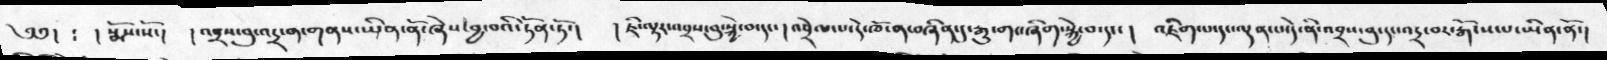༄༅།  ༴ །སྨོས་སོ་།  །འབྲས་བུ་འདྲ་ན་གནས་ཡིན་ནོ་ཞེས་བྱ་བའི་དོན་ཏོ་།  །ཇི་ལྟར་འབྲས་བུ་སྐྱེ་བ་དང་། འབྲེལ་པ་དེ་ཁོ་ན་བཞིན་དུ་རྒྱུ་གང་ཞིག་སྐྱེ་བ་དང་།  འཇིག་པ་དང་ལྡན་པ་དེ་ནི་འབྲས་བུ་དང་འདྲ་བར་རྒོངས་པ་ཡིན་ནོ་།
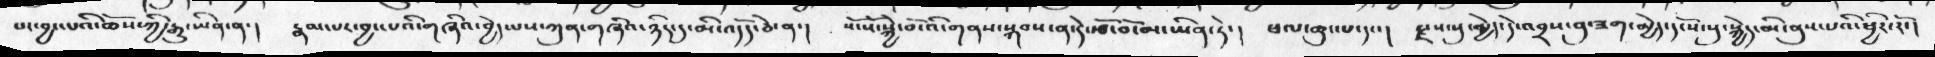པར་བྱང་པའི་ཆོས་ཀྱི་རྒྱུ་ཡིན་ན་།  རྣམ་པར་བྱང་པའི་གཞིའ་བྱེད་པས་ཀུན་གཞིའ་ཉིད་དུ་མི་འདོད་ཅེ་ན་།  སོ་སོ་སྐྱེ་བོ་འི་གནས་སྐབས་ན་དེ་རྩོ་བོ་མ་ཡིན་ཏེ་།  ཕལ་ཆུང་པ་དང་།  རྫས་སུ་མྱེད་དེ་འབྲས་བུ་ཟག་མྱེད་དངོས་སུ་སྐྱེད་མི་ནུས་པའི་ཕྱིར་རོ་།
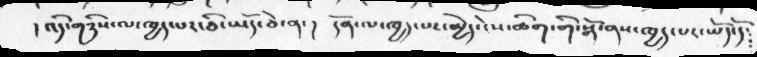།འདི་གཉིས་ལ་ཁྱད་པར་ཅི་ཡོད་ཅེ་ན་།  དོན་ལ་ཁྱད་པར་མྱེད་ངེས་ཚིག་གི་སྒོ་ནས་ཁྱད་པར་ཡོད་དོ༴
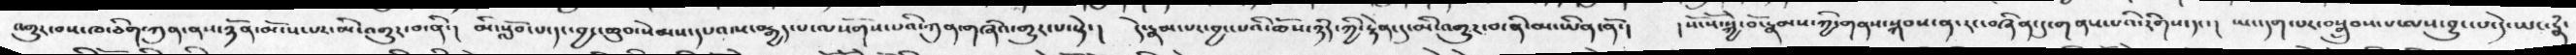འགྱུར་བས་ཁ་ཅིག་ཀུན་ནས་ཉོན་མོངས་པར་མི་འགྱུར་བ་ནི་།  མི་སློབ་པ་དང་བྱང་ཆུབ་སེམས་དཔའ་ས་བརྒྱད་པ་ལསོགས་པའི་ཀུན་གཞིའ་གྱུར་པ་སྟེ་།  དེ་རྣམ་པར་བྱང་པའི་ཆོས་ཉིད་ཀྱི་རྟེན་དུ་མི་འགྱུར་བ་ནི་མ་ཡིན་ནོ་།  །སོ་སོ་སྐྱེ་བོ་རྣམས་ཀྱི་གནས་སྐབས་ན་རང་བཞིན་དུ་གནས་པའི་རིགས་དང་།  ཡང་དག་པར་བསྒྲུབས་པ་ལས་བྱུང་པ་དེ་ཡང་རྣཾ་
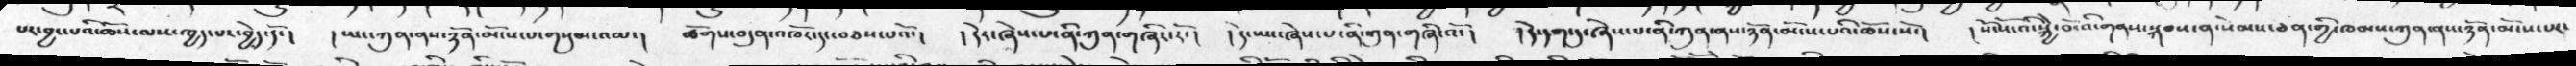པར་བྱང་པའི་ཆོས་ལས་ཁྱད་པར་བྱེད་དོ་།  །ཡང་ཀུན་ནས་ཉོན་མོངས་པ་གསུམ་འམ་།  ཚོགས་བདུན་འཁོར་དང་བཅས་པའོ་།  །དེར་ཞེས་པ་ནི་ཀུན་གཞིར་རོ་།  །དེ་ཡང་ཞེས་པ་ནི་ཀུན་གཞི་འོ་།  །དེ་དག་དུ་ཞེས་པ་ནི་ཀུན་ནས་ཉོན་མོངས་པའི་ཆོས་སོ་།  །སོ་སོ་འི་སྐྱེ་བོ་འི་གནས་སྐབས་ན་སེམས་ཅན་གྱི་ཁམས་ཀུན་ནས་ཉོན་མོངས་པར་
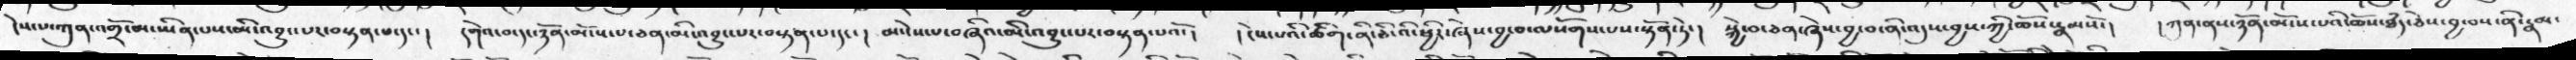ངེས་པ་ཀུན་འགྲོ་མ་ཡིན་པས་མི་འབྱུང་པར་བསྟན་པ་དང་།  དགེའ་བ་དང་ཉོན་མོངས་པ་ཅན་མི་འབྱུང་པར་བསྟན་པ་དང་།  མ་ངེས་པ་བཞིའ་མི་འབྱུང་པར་བསྟན་པའོ་།  །ངེས་པའི་ཚིག་ནི་ཅི་འི་ཕྱིར་ཞེས་བྱ་བ་ལསོགས་པས་སྟོན་ཏེ་།  སྐྱེ་བ་ཅན་ཞེས་བྱ་བ་ནི་འདུས་བྱས་ཀྱི་ཆོས་རྣམསོ་།   །ཀུན་ནས་ཉོན་མོངས་པའི་ཆོས་ཐདཾ་ཅེས་བྱ་བས་ནི་རྣམ་
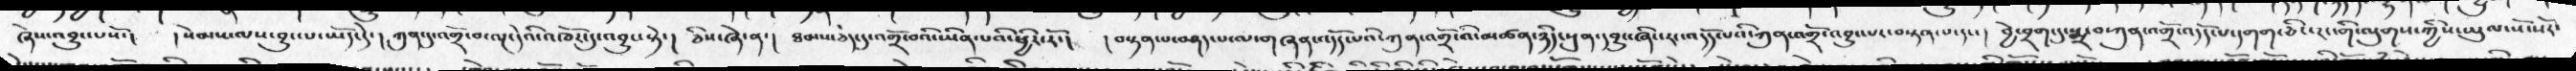ཞེས་འབྱུང་པསོ་།  །སེམས་ལས་བྱུང་པ་ཡོད་དེ་།  ཀུན་དུ་འགྲོ་བ་ལྔ་དེའི་འཁོར་དུ་འབྱུང་སྟེ་།  ཅིས་ཞེ་ན་།  ཐམས་ཅད་དུ་འགྲོ་བའི་ཡིན་པའི་ཕྱིར་རོ་།  །བསྟན་པ་བཤད་པ་ལ་གཞན་འདོད་པའི་ཀུན་འགྲོ་འི་མཚན་ཉིད་སུན་དབྱུང་ཞིང་རང་འདོད་པའི་ཀུན་འགྲོ་འབྱུང་པར་བསྟན་པ་དང་།  བྱེ་བྲག་དུ་སྨྲ་བ་ཀུན་འགྲོ་འདོད་པ་དགག་ཅིང་རང་གི་ལུགས་ཀྱིས་ཡུལ་སོ་སོར་་
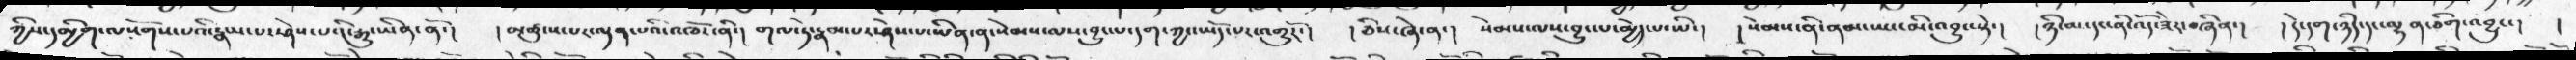ཀྱིས་དམྱིག་ལསོགས་པའི་རྣམ་པར་ཤེས་པའི་རྒྱུ་ཡིན་ནོ་།  །མཚུངས་པར་ལྡན་པའི་འཁོར་ནི་།  གལ་ཏེ་རྣམ་པར་ཤེས་པ་ཡིན་ན་སེམས་ལས་བྱུང་པ་དག་ཀྱང་ཡོད་པར་འགྱུརོ་།  །ཅིས་ཞེ་ན་།  སེམས་ལས་བྱུང་པ་མྱེད་པ་ཡི་།  །སེམས་ནི་ནམ་ཡང་མི་འབྱུང་སྟེ་།  །ཉི་མ་དང་ནི་འོད་ཟེར་བཞིན་།  །དེ་དག་ཉིད་དང་ལྷན་ཅིག་འབྱུང་།  །
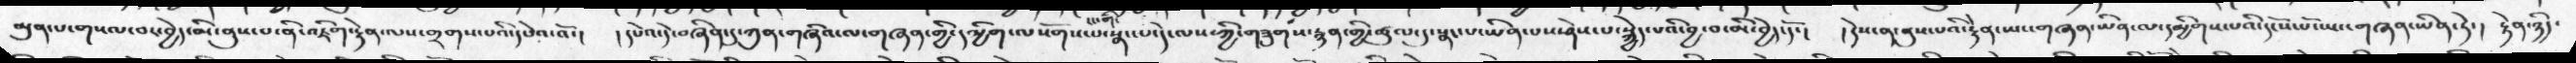མུན་པ་གསལ་བར་བྱེད་མི་ནུས་པ་ནི་འཇིག་རྟེན་ལས་གྲགས་པའི་དཔེའ་འོ་།   །དཔེའ་དེ་བཞིན་དུ་ཀུན་གཞིའ་ལ་གཞན་གྱི་དམྱིག་ལསོགས་པ་སྣང་པ་དེ་ལས་ཀྱི་གཟུགས་རྙན་གྱི་ཚུལ་དུ་སྣང་པ་ཡིན་པས་ཤེས་པ་སྐྱེད་པའི་བྱ་བ་མི་བྱེད་དོ་།   །དེས་ན་ནུས་པའི་རྟེན་ཡང་གཞན་ཡིན་ལ་དམྱིགས་པའི་དངོས་པོ་ཡང་གཞན་ཡིན་ཏེ་།  རྟེན་ཉིད་
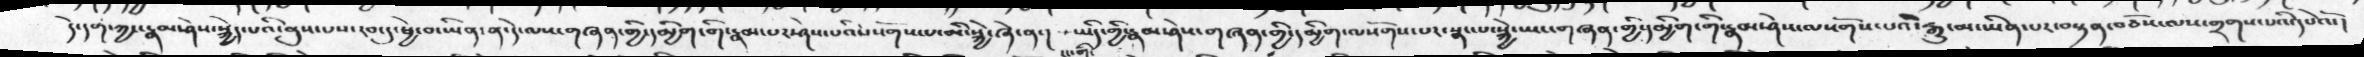དེ་དག་ཀྱང་རྣམ་ཤེས་སྐྱེད་པའི་ནུས་པས་རབ་དུ་ཕྱེ་བ་ཡིན་ན་དེ་ལས་གཞན་གྱི་དམྱིག་གི་རྣམ་པར་ཤེས་པའི་ལ་སོགས་པ་མི་སྐྱེ་ཞེ་ན་།  ཡིད་གྱི་རྣམ་ཤེས་གཞན་གྱི་དམྱིག་ལསོགས་པར་སྣང་པ་སྐྱེ་ཡང་གཞན་གྱི་དམྱིག་གི་རྣམ་ཤེས་ལསོགས་པའི་རྒྱུ་མ་ཡིན་པར་བསྟན་བཅོས་ལས་གྲགས་པའི་དཔེའོ་།
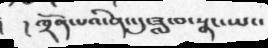།     །ཁྲོན་པའི་ནང་དུ་ཟླ་བ་སྣང་ཡང་
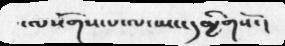་ལསོགས་པ་ལ་ཡང་དམྱིགསོ་།
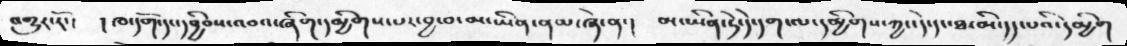འགྱུར་རོ་།  །ཁ་དོག་དབྱིབས་འབའ་ཞིག་དམྱིགས་པར་བྱ་བ་མ་ཡིན་ནམ་ཞེ་ན་།  མ་ཡིན་ཏེ་དེ་དག་ལ་དམྱིགས་ཀྱང་དེ་དང་ཐ་མི་དད་པའི་དམྱིག
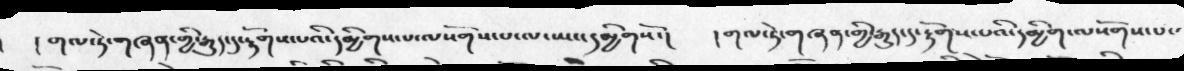།གལ་ཏེ་གཞན་གྱི་རྒུད་དུ་རྟོགས་པའི་དམྱིགས་པ་ལསོགས་པ་ལ་ཡང་དམྱིགསོ་།  །གལ་ཏེ་གཞན་གྱི་རྒུདདུད་རྟོགས་པའི་དམྱིག་ལསོགས་པ་
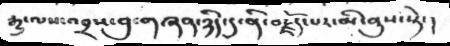རྒྱུ་ལས་འབྲས་བུ་གཞན་ཉིད་དུ་ནི་བརྗོད་པར་མི་ནུས་སྟེ་།
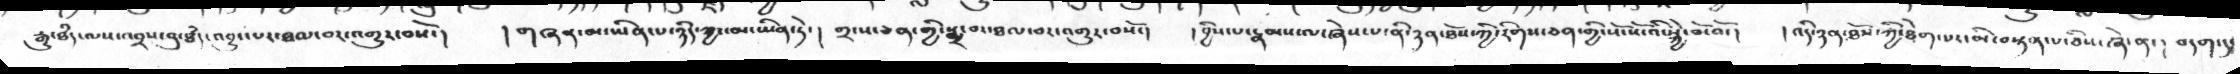རྒྱུ་ཐཾད་ལས་འབྲས་བུ་ཐཾད་འབྱུང་པར་ཐལ་བར་འགྱུར་བསོ་།    །གཞན་མ་ཡིན་པ་ཉིད་ཀྱང་མ་ཡིན་ཏེ་།  གྲངས་ཅན་གྱི་སྨྲ་བར་ཐལ་བར་འགྱུར་བསོ་།   །བྱིས་པ་རྣམས་ལ་ཞེས་པ་ནི་ཉན་ཐོས་ཀྱི་རིགས་ཅན་གྱི་སོ་སོ་འི་སྐྱེ་བོ་འོ་།    །འདི་ཉན་ཐོས་ཀྱི་ཐེག་པར་མི་བསྟན་པ་ཅིས་ཞེ་ན་། བདག་དུ་
